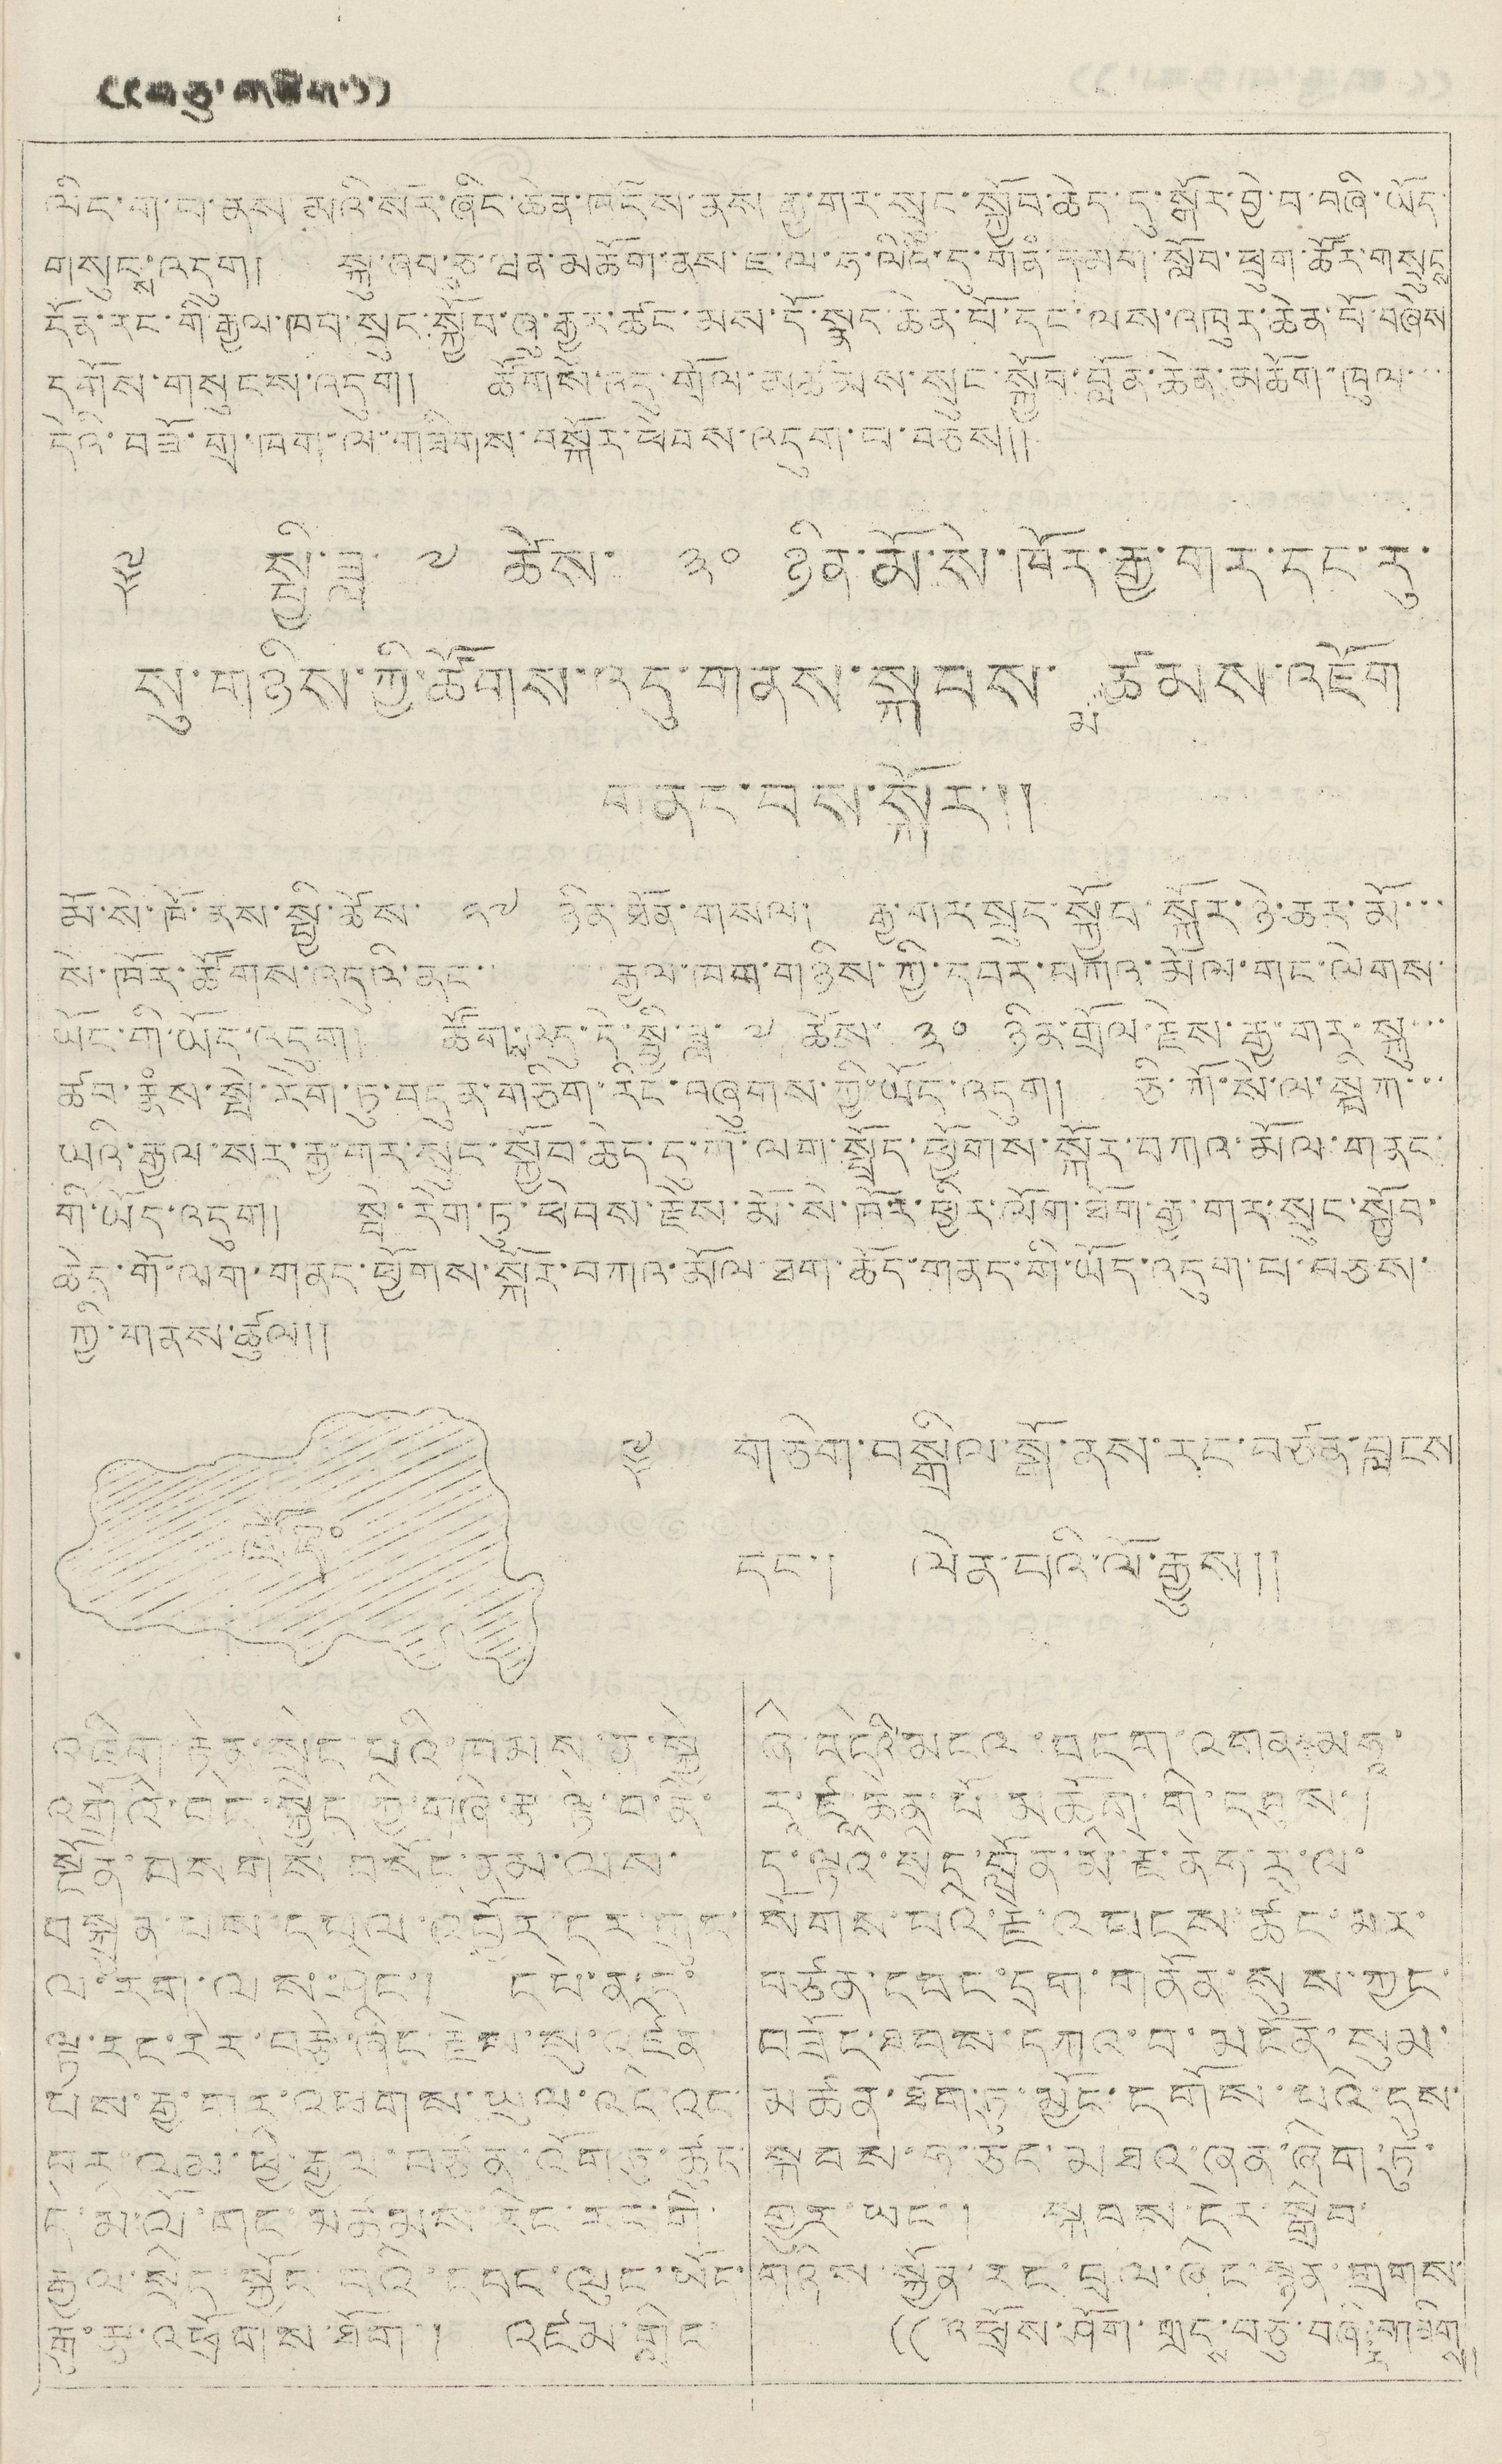(( བཅུ་གཅིག་ ))
ལིང་ག་པ་ནས་མའི་སོར་ཞིང་ཆེན་ཁོངས་ནས རྒྱ་གར་སྲུང་སྐྱོབ་ཆེད་དུ་སྒོར་བྱེ་བཞི་ཡོད་
གསུང
ས
་འདུག། སྐུ་ཞབ
ས
་ཅ་ཝན་མཆོག་ནས་ཇ་ལ་ཧ་ལིའི་དུ་གནཾ་དམག་སློབ་ཕྲུག་ཚོར་གསྲུངས
དོན་རང་གི་རྒྱལ་ཁབ་སྲུང་སྐྱོབ་ཞུ་རྒྱར་ཚང་མས་དོ་སྣང་ཆེན་པོ་དང་ལས་འཁུར་ཆེན་པོ་བཞེས
དགོས་གསུངས་འདུག། ཚོགས་འདུ་གྲོལ་མཚམས་སྲུང་སྐྱོབ་བློན་ཆེན་མཆོག་ཁུལ་་་
དེའི་བཟོ་གྲ་ཁག་ལ་གཟིགས་བསྐོར་ཕེབས་འདུག་པ་བཅས།།
༈ སྤྱི་ཟླ་ ༧ ཚེས་ ༣༠ ཉིན་མོ་སེ་ཁོར་རྒྱ་གར་དང་རུ་
སུ་གཉིས་ཀྱི་ཚོགས་འདུ་གནས་སྐབས་
མ
ཚམས་འཇོག
གནང་བས་སྐོར་།།
མོ་སེ་ཁོ་ནས་སྤྱི་ཚེས་ ༢༧ ཉིན་ཐོན་གསལ། རྒྱ་གར་སྲུང་སྐྱོབ་སྐོར་ཉེ་ཆར་མོ་་་
སེ་ཁོར་ཚོགས་འདུའི་ནང་་ རྒྱལ་ཁག་གཉིས་ཀྱི་དབར་བཀའ་མོལ་གང་ལེགས་
ཡོང་གི་ཡོད་འདུག། ཚོགས་འདུ་དེ་སྤྱི་ ༧ ཚེས་ ༣༠ ཉིན་གྲོལ་རྗེས་རྒྱ་གར་སྐུ་་་
ཚབ་རྣཾས་སྤེ་རེག་ཏུ་བདུན་གཅིག་རིང་བཞུགས་ཀྱི་ཡོད་འདུག། ཅི་ཀོ་སེ་ལ་སྦིཀ་་་
ཡའི་རྒྱལ་སར་རྒྱ་གར་སྲུང་སྐྱོབ་ཆེད་དུ་གོ་ལག་སྤྲོད་ཕྱོགས་སྐོར་བཀའ་མོལ་གནང་
གི་ཡོད་འདུག། སྤེ་རེག་ཏུ་ཕེབས་རྗེས་མོ་སེ་ཁོར་ཕྱིར་ལོག་ཐོག་རྒྱ་གར་སྲུང་སྐྱོབ་
ཆེད་གོ་ལག་གནང་ཕྱོགས་སྐོར་བཀའ་མོལ་ཐག་ཆོད་གནད་གི་ཡོད་འདུག་པ་བཅས་
གྱི་གནས་ཚུལ།།
བོད་
༈ གཅིག་བསྒྲིལ་སྒོ་ནས་རང་བཙན་བླངས
དང་། ལེན་པའི་ལོ་རྒྱུས།།
འཇིག་རྟེན་སྲེང་པའི་ཁམས་ན་སྐྱེ
འགྲོའི་བདེ་སྐྱིད ཀྱི་གཞི་རྩ་ལྟེ་བ་ནི་
སྔོན་བསགས བསོད་ནམ་ལས་
བསྐྲུན་པས་དཔལ་འབྱོར་དར་གུང་
ལ་རག་ལས་ཤིང་། དཔེ་ན་ད་
ལྟ་རང་རེར་བརྩེ་ཞིང་རྗེས་སུ་འཛིན
པས་རྒྱ་གར་འཕགས་ཡུལ་འདི་འང་
པར་ལམ་ཕྱི་རྒྱལ་བཙན་འོག་ཏུ་ཚུད་
དེ་མི་ལོ་གང་མཚམས་རིང་རང་གི་
རྒྱལ་སྲིད་སྒྱོང་བའི་དབང་ལུང་ཡོང་
རྒུ་རྩ་འཕྲོགས་ཐོག། །འཛམ་གླིང་
ཞི་བདེའི་མངའ་བདག་འགན མཧཱ་
རཱ་ཛཱ་ཆེན་པོ་མཆོག་གི་དབུས་།
ད་ལྟའི་སྲིད་བློན་མི་རྗེ་ནེཧ་རུ་ལ་
སོགས་པའི་རྗེ་འབངས་ཚང་མར་
བཙན་དབང་དྲག་གནོན་སུས་ཀྱང་
བཟོད་ཐབས་དཀའ་བ་མངོན་སུམ་
མཚན་ཐོག་ཏུ་མྱོང་དགོས་པའི་དུས་
སྐབས་ཧ་ཅང་མཐའ་ཞན་ཞིག་ཏུ་
གྱུར་ཡང་། སྐབས་དེར་སྒྲིབ་
གཉིས་སྐྱོན་རང་བྲལ་ཞིང་སྙན་གྲགས་
(( འཕྲོས་ཤོག་གྲངྶ་བཅུ་བཞིར་གཟིགས
